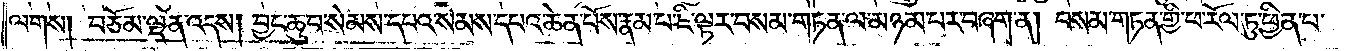ལགས། བཅོམ་ལྡན་འདས། བྱང་ཆུབ་སེམས་དཔའ་སེམས་དཔའ་ཆེན་པོས་རྣམ་པ་ཇི་ལྟར་བསམ་གཏན་ལ་མཉམ་པར་བཞག་ན། བསམ་གཏན་གྱི་ཕ་རོལ་ཏུ་ཕྱིན་པ་
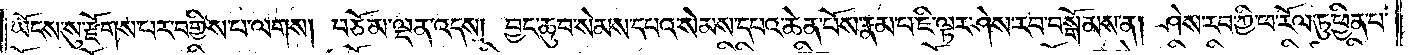ཡོངས་སུ་རྫོགས་པར་བགྱིས་པ་ལགས། བཅོམ་ལྡན་འདས། བྱང་ཆུབ་སེམས་དཔའ་སེམས་དཔའ་ཆེན་པོས་རྣམ་པ་ཇི་ལྟར་ཤེས་རབ་བསྒོམས་ན། ཤེས་རབ་ཀྱི་ཕ་རོལ་ཏུ་ཕྱིན་པ་
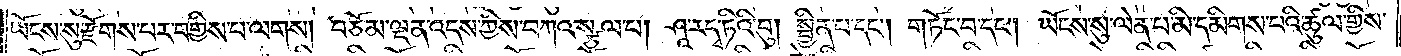ཡོངས་སུ་རྫོགས་པར་བགྱིས་པ་ལགས། བཅོམ་ལྡན་འདས་ཀྱིས་བཀའ་སྩལ་པ། ཤཱ་ར་དྭ་ཏིའི་བུ། སྦྱིན་པ་དང༌། གཏོང་བ་དང༌། ཡོངས་སུ་ལེན་པ་མི་དམིགས་པའི་ཚུལ་གྱིས་
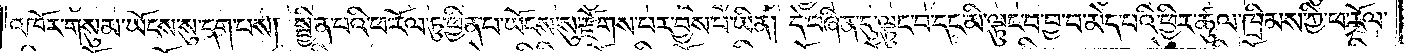འཁོར་གསུམ་ཡོངས་སུ་དག་པས། སྦྱིན་པའི་ཕ་རོལ་ཏུ་ཕྱིན་པ་ཡོངས་སུ་རྫོགས་པར་བྱས་པ་ཡིན། དེ་བཞིན་དུ་ལྟུང་བ་དང་མི་ལྟུང་བ་བྱ་བ་མེད་པའི་ཕྱིར་ཚུལ་ཁྲིམས་ཀྱི་ཕ་རོལ་
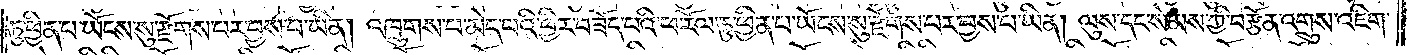ཏུ་ཕྱིན་པ་ཡོངས་སུ་རྫོགས་བར་བྱས་པ་ཡིན། འཁྲུགས་པ་མེད་པའི་ཕྱིར་བཟོད་པའི་ཕ་རོལ་ཏུ་ཕྱིན་པ་ཡོངས་སུ་རྫོགས་པར་བྱས་པ་ཡིན། ལུས་དང་སེམས་ཀྱི་བརྩོན་འགྲུས་འཇིག་
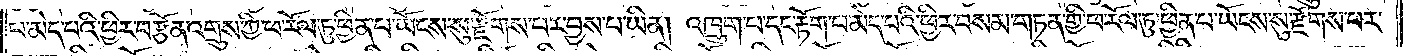པ་མེད་པའི་ཕྱིར་བརྩོན་འགྲུས་ཀྱི་ཕ་རོལ་ཏུ་ཕྱིན་པ་ཡོངས་སུ་རྫོགས་པར་བྱས་པ་ཡིན། འཁྲུག་པ་དང་རྟོག་པ་མེད་པའི་ཕྱིར་བསམ་གཏན་གྱི་ཕ་རོལ་ཏུ་ཕྱིན་པ་ཡོངས་སུ་རྫོགས་པར་
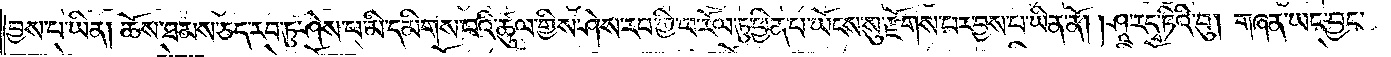བྱས་པ་ཡིན། ཆོས་ཐམས་ཅད་རབ་ཏུ་ཤེས་པ་མི་དམིགས་པའི་ཚུལ་གྱིས་ཤེས་རབ་ཀྱི་ཕ་རོལ་ཏུ་ཕྱིན་པ་ཡོངས་སུ་རྫོགས་པར་བྱས་པ་ཡིན་ནོ། །ཤཱ་ར་དྭ་ཏིའི་བུ། གཞན་ཡང་བྱང་
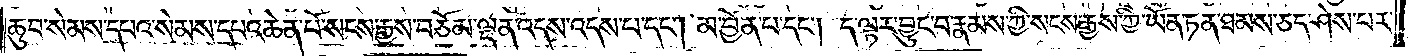ཆུབ་སེམས་དཔའ་སེམས་དཔའ་ཆེན་པོ་སངས་རྒྱས་བཅོམ་ལྡན་འདས་འདས་པ་དང༌། མ་བྱོན་པ་དང༌། ད་ལྟར་བྱུང་བ་རྣམས་ཀྱི་སངས་རྒྱས་ཀྱི་ཡོན་ཏན་ཐམས་ཅད་ཤེས་པར་
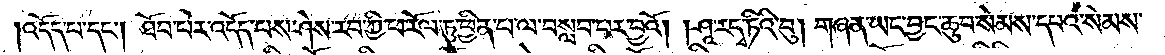འདོད་པ་དང༌། ཐོབ་པར་འདོད་པས་ཤེས་རབ་ཀྱི་ཕ་རོལ་ཏུ་ཕྱིན་པ་ལ་བསླབ་པར་བྱའོ། །ཤཱ་ར་དྭ་ཏིའི་བུ། གཞན་ཡང་བྱང་ཆུབ་སེམས་དཔའ་སེམས་
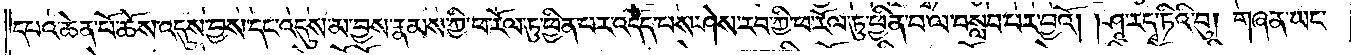དཔའ་ཆེན་པོ་ཆོས་འདུས་བྱས་དང་འདུས་མ་བྱས་རྣམས་ཀྱི་ཕ་རོལ་ཏུ་ཕྱིན་པར་འདོད་པས་ཤེས་རབ་ཀྱི་ཕ་རོལ་ཏུ་ཕྱིན་པ་ལ་བསླབ་པར་བྱའོ། །ཤཱ་ར་དྭ་ཏིའི་བུ། གཞན་ཡང་
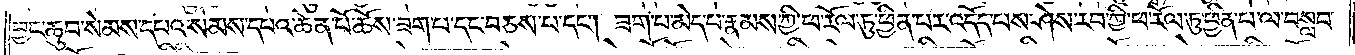བྱང་ཆུབ་སེམས་དཔའ་སེམས་དཔའ་ཆེན་པོ་ཆོས་ཟག་པ་དང་བཅས་པ་དང༌། ཟག་པ་མེད་པ་རྣམས་ཀྱི་ཕ་རོལ་ཏུ་ཕྱིན་པར་འདོད་པས་ཤེས་རབ་ཀྱི་ཕ་རོལ་ཏུ་ཕྱིན་པ་ལ་བསླབ་
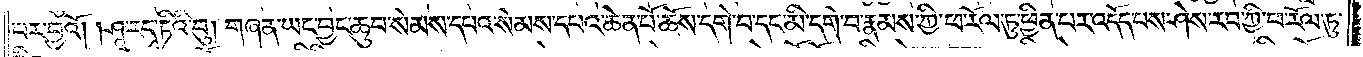པར་བྱའོ། །ཤཱ་ར་དྭ་ཏིའི་བུ། གཞན་ཡང་བྱང་ཆུབ་སེམས་དཔའ་སེམས་དཔའ་ཆེན་པོ་ཆོས་དགེ་བ་དང་མི་དགེ་བ་རྣམས་ཀྱི་ཕ་རོལ་ཏུ་ཕྱིན་པར་འདོད་པས་ཤེས་རབ་ཀྱི་ཕ་རོལ་ཏུ་
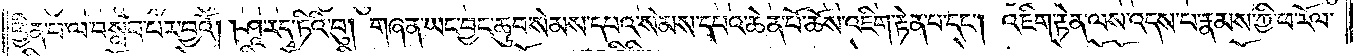ཕྱིན་པ་ལ་བསླབ་པར་བྱའོ། །ཤཱ་ར་དྭ་ཏིའི་བུ། གཞན་ཡང་བྱང་ཆུབ་སེམས་དཔའ་སེམས་དཔའ་ཆེན་པོ་ཆོས་འཇིག་རྟེན་པ་དང༌། འཇིག་རྟེན་ལས་འདས་པ་རྣམས་ཀྱི་ཕ་རོལ་
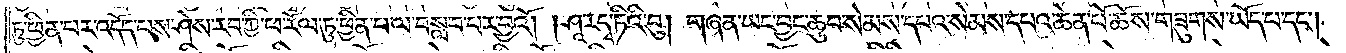ཏུ་ཕྱིན་པར་འདོད་པས་ཤེས་རབ་ཀྱི་ཕ་རོལ་ཏུ་ཕྱིན་པ་ལ་བསླབ་པར་བྱའོ། །ཤཱ་ར་དྭ་ཏིའི་བུ། གཞན་ཡང་བྱང་ཆུབ་སེམས་དཔའ་སེམས་དཔའ་ཆེན་པོ་ཆོས་གཟུགས་ཡོད་པ་དང༌།
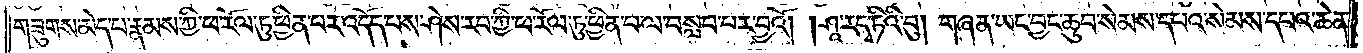གཟུགས་མེད་པ་རྣམས་ཀྱི་ཕ་རོལ་ཏུ་ཕྱིན་པར་འདོད་པས་ཤེས་རབ་ཀྱི་ཕ་རོལ་ཏུ་ཕྱིན་པ་ལ་བསླབ་པར་བྱའོ། །ཤཱ་ར་དྭ་ཏིའི་བུ། གཞན་ཡང་བྱང་ཆུབ་སེམས་དཔའ་སེམས་དཔའ་ཆེན་
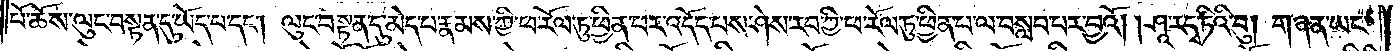པོ་ཆོས་ལུང་བསྟན་དུ་ཡོད་པ་དང༌། ལུང་བསྟན་དུ་མེད་པ་རྣམས་ཀྱི་ཕ་རོལ་ཏུ་ཕྱིན་པར་འདོད་པས་ཤེས་རབ་ཀྱི་ཕ་རོལ་ཏུ་ཕྱིན་པ་ལ་བསླབ་པར་བྱའོ། །ཤཱ་ར་དྭ་ཏིའི་བུ། གཞན་ཡང་
